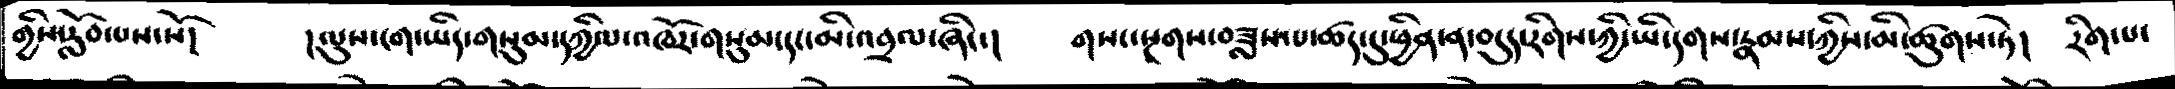གྱིས་རློབ་པས་སོ།       །ལུས་ངག་ཡིད་གསུམ་དཀྱིལ་འཁོར་གསུམ་དང་མི་འབྲལ་ཞིང་།   གསང་སྔགས་བཟླས་པ་ཚད་དུ་ཕྱིན་ན་བདུད་རིགས་ཀྱི་ཡི་དགས་རྣམས་ཀྱིས་མི་ཚུགས་ཏེ།  རིག་པ་
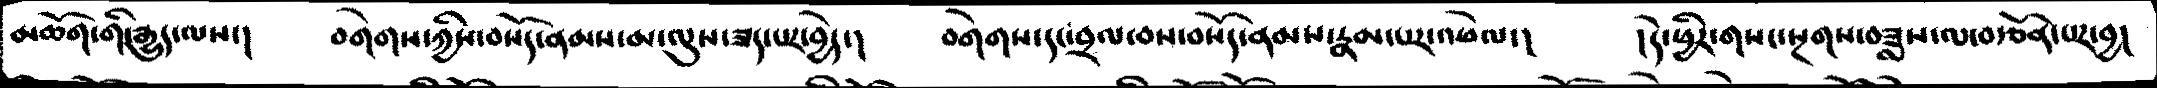མཆོག་གི་རྒྱུད་ལས་།    བགེགས་ཀྱིས་བསོད་ནམས་མ་ལུས་ཟད་པར་བྱེད་།   བགེགས་དང་བྲལ་བས་བསོད་ནམས་རྣམ་པར་འཕེལ་།    །དེ་ཕྱིར་གསང་སྔགས་བཟླས་ལ་བརྩོན་པར་བྱ།
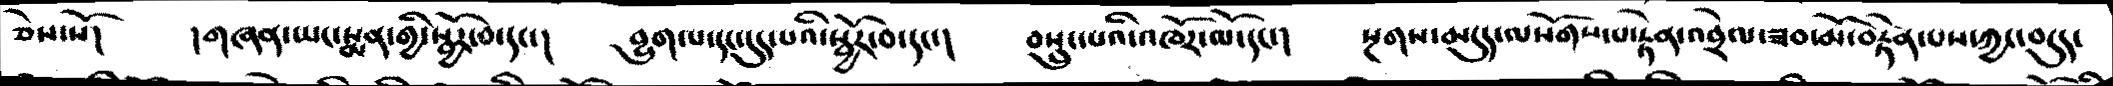ཅེས་སོ།   །གཞན་ཡང་སྨན་གྱི་སྦྱོར་བ་དང་།   བྱུག་པ་དང་དུད་པའི་སྦྱོར་བ་དང་།   བསྲུང་པའི་འཁོར་ལོ་དང་།  སྔགས་མདུད་ལསོགས་པ་རྟེན་འབྲེལ་ཟབ་མོ་བརྟེན་པས་ཀྱང་བདུད་
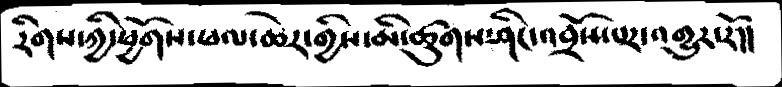རིགས་ཀྱི་ཕྱོགས་ཕལ་ཆེན་གྱིས་མི་ཚུགས་ཤིང་འབྲོས་པར་འགྱུར་རོ།།
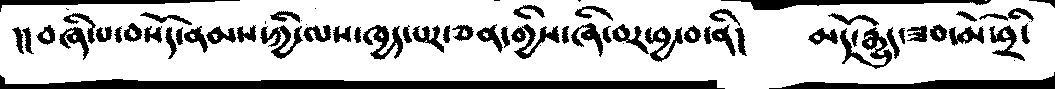།།བཞི་པ་བསོད་ནམས་ཀྱི་ལས་ཁྱད་པར་ཅན་གྱིས་ཞི་བར་བྱ་བ་ནི།  མདོ་རྒྱུད་ཟབ་ལོ་བྲི་
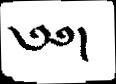༄༅།
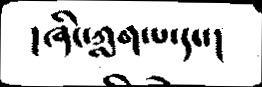།ཞིང་ཀླག་པ་དང་།
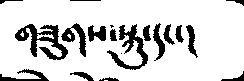གཟུགས་སྐུ་དང་།
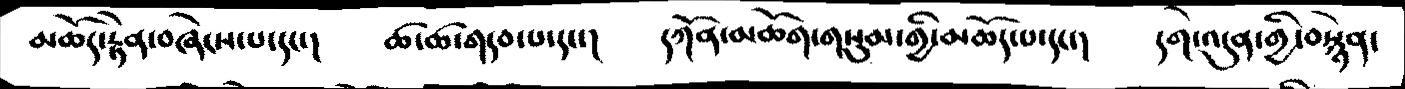མཆོད་རྟེན་བཞེངས་པ་དང་།   ཚ་ཚ་གདབ་པ་དང་།   དཀོན་མཆོག་གསུམ་གྱི་མཆོད་པ་དང་།   དགེ་འདུན་གྱི་བསྙེན་
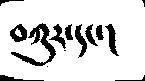བཀུར་དང་།
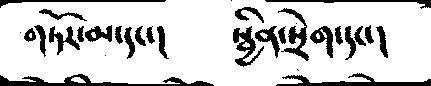གཏོར་མ་དང་།   སྦྱིན་སྲེག་དང་།
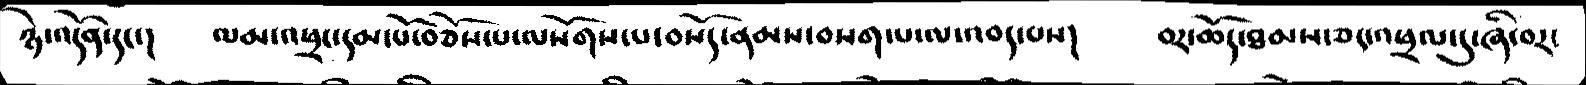ཉེ་འདོན་དང་།   ལམ་འཕྲང་དམ་པོ་བཅོས་པ་ལསོགས་པ་བསོད་ནམས་བསག་པ་ལ་འབད་པས།    བར་ཆོད་ཐམས་ཅད་འཕྲལ་དུ་ཞི་བར་
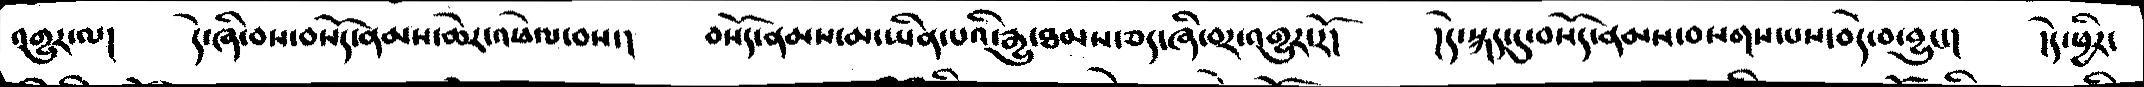འགྱུར་ལ།   དེ་ཞི་བས་བསོད་ནམས་ཆེར་འཕེལ་བས་།   བསོད་ནམས་ཡིན་པའི་རྒྱུ་ཐམས་ཅད་ཞི་བར་འགྱུར་རོ།   །དེ་སྐད་དུ་བསོད་ནམས་བསགས་པས་བདེ་བ་བྱུང་།   །དེ་ཕྱིར་
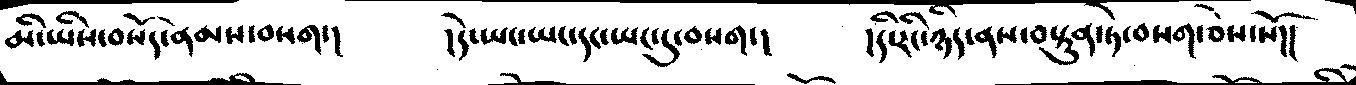མི་ཡིས་བསོད་ནམས་བསག་།         །དེ་ཡང་ཡང་དང་ཡང་དུ་བསག་།        །དི་རིང་ཉིད་ནས་བསྟུན་ཏེ་བསག་ཅེས་སོ།།
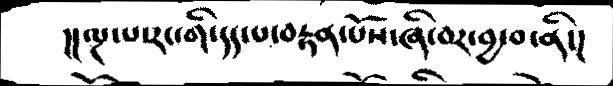།།ལྔ་པ་རང་གི་དད་པ་བརྟན་པོས་ཞི་བར་བྱ་བ་ནི་།
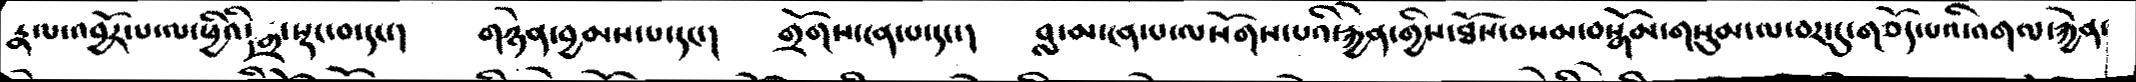རྣལ་འབྱོར་པ་ལ་ཕྱིའི་དགྲ་སྡང་བ་དང་།  གཉེན་བྱམས་པ་དང་།   གྲོགས་ངན་པ་དང་།   བླ་མ་ངན་པ་ལསོགས་པའི་རྐྱེན་གྱིས་ཐོས་བསམ་བསྒོམ་གསུམ་ལ་བར་དུ་གཅོད་པའི་འགལ་རྐྱེན་
